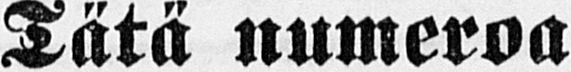Tätä numeroa
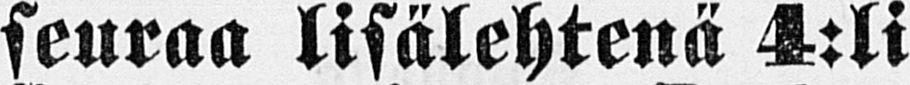seuraa lisälehtenä 4:li
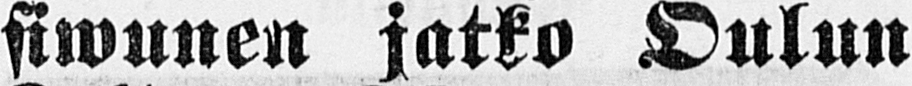siwunen jatko Oulun
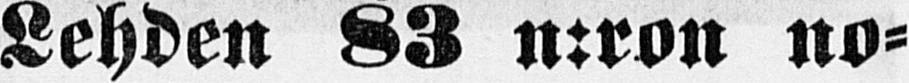Lehden 83 n:ron no-
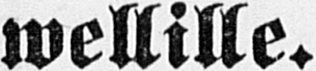wellille.
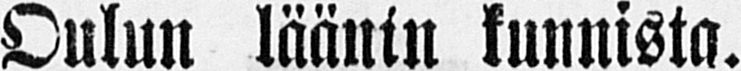Oulun läänin kunnista.
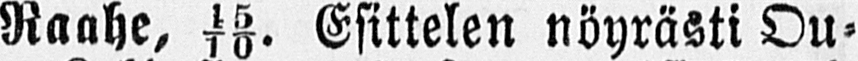Raahe, 15/10. Esittelen nöyrästi Ou-
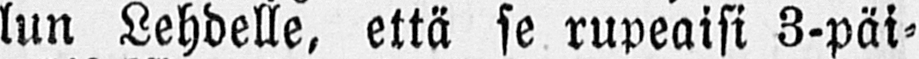lun Lehdelle, että se rupeaisi 3-päi-
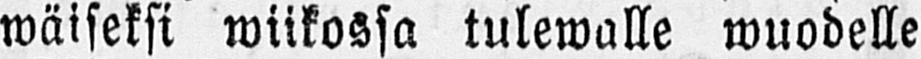wäiseksi wiikossa tulewalle wuodelle
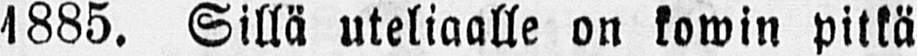1885. Sillä uteliaalle on kowin pitkä
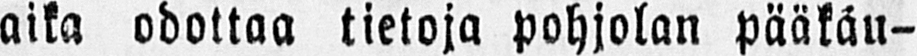aika odottaa tietoja pohjolan pääkäu-
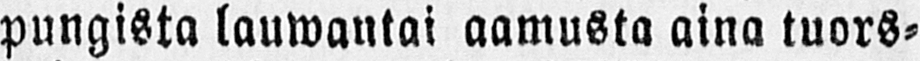pungista lauwantai aamusta aina tuors-
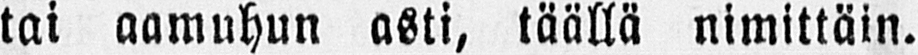tai aamuhan asti, täällä nimittäin.
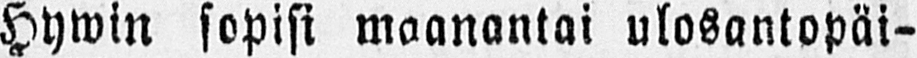Hywin sopisi maanantai ulosantopäi-
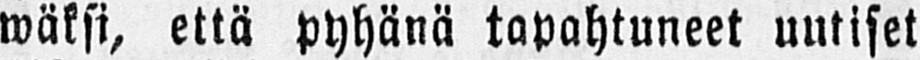wäksi, että pyhänä tapahtuneet uutiset
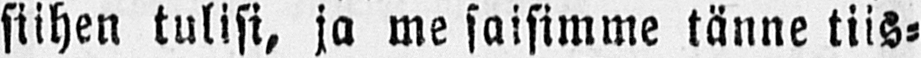siihen tulisi, ja me saisimme tänne tiis-
